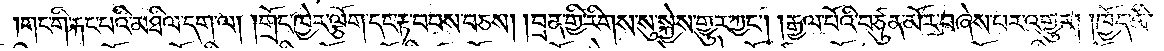།གང་གི་རྐང་པའི་མཐིལ་དག་ལ། །གྲོང་ཁྱེར་ལྕོག་དང་རྟ་བབས་བཅས། །བྲན་གྱི་རིགས་སུ་སྐྱེས་གྱུར་ཀྱང༌། །རྒྱལ་པོའི་བཙུན་མོར་བཞེས་པར་འགྱུར། །ཁྱོད་མི་
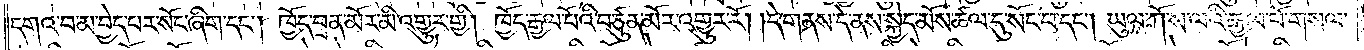དགའ་བ་མ་བྱེད་པར་སོང་ཞིག་དང༌། ཁྱོད་བྲན་མོར་མི་འགྱུར་གྱི། ཁྱོད་རྒྱལ་པོའི་བཙུན་མོར་འགྱུར་རོ། །དེ་གནས་དེ་ནས་སྐྱེད་མོས་ཚལ་དུ་སོང་བ་དང༌། ཡུལ་ཀོ་ས་ལའི་རྒྱལ་པོ་གསལ་
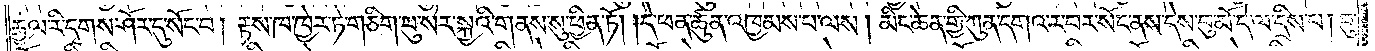རྒྱལ་རི་དྭགས་ཤོར་དུ་སོང་བ། རྟས་ཁ་ཁྱེར་ཏེ་གཅིག་པུ་སེར་སྐྱའི་གནས་སུ་ཕྱིན་ཏོ། །དེ་ཕན་ཚུན་འཁྱམས་པ་ལས། མིང་ཆེན་གྱི་ཀུན་དགའ་ར་བར་སོང་ནས་དེས་བུ་མོ་དེ་ལ་དྲིས་པ། བུ་
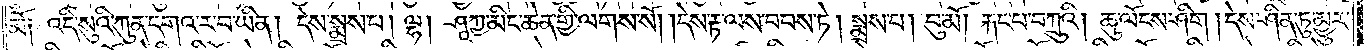མོ། འདི་སུའི་ཀུན་དགའ་ར་བ་ཡིན། དེས་སྨྲས་པ། ལྷ། ཤཱཀྱ་མིང་ཆེན་གྱི་ལགས་སོ། །དེས་རྟ་ལས་བབས་ཏེ། སྨྲས་པ། བུ་མོ། རྐང་པ་བཀྲུའི། ཆུ་ལོངས་ཤིག །དེས་ཤིན་ཏུ་མྱུར་
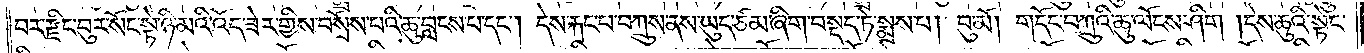བར་རྫིང་བུར་སོང་སྟེ་ཉི་མའི་འོད་ཟེར་གྱིས་བསྲོས་པའི་ཆུ་བླངས་པ་དང༌། དེས་རྐང་པ་བཀྲུས་ནས་ཡུད་ཙམ་ཞིག་བསྡད་ཏེ་སྨྲས་པ། བུ་མོ། གདོང་བཀྲུའི་ཆུ་ལོངས་ཤིག །དེས་ཆུའི་སྟེང་
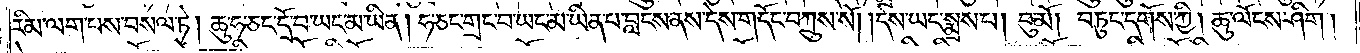རིམ་ལག་པས་བསལ་ཏེ། ཆུ་ཧ་ཅང་དྲོ་བ་ཡང་མ་ཡིན། ཧ་ཅང་གྲང་བ་ཡང་མ་ཡིན་པ་བླངས་ནས་དེས་གདོང་བཀྲུས་སོ། །དེས་ཡང་སྨྲས་པ། བུ་མོ། བཏུང་དགོས་ཀྱི། ཆུ་ལོངས་ཤིག་
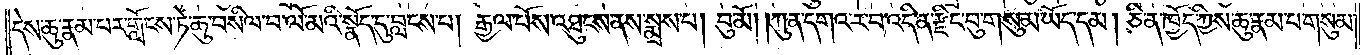དེས་ཆུ་རྣམ་པར་གློངས་ཏེ་ཆུ་བསིལ་པ་ལོ་མའི་སྣོད་དུ་བླངས་པ། རྒྱལ་པོས་འཐུངས་ནས་སྨྲས་པ། བུ་མོ། །ཀུན་དགའ་ར་བ་འདི་ན་རྫིང་བུ་གསུམ་ཡོད་དམ། ཅི་ན་ཁྱོད་ཀྱིས་ཆུ་རྣམ་པ་གསུམ་
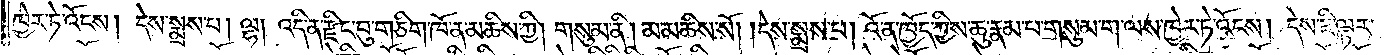ཁྱེར་ཏེ་འོངས། དེས་སྨྲས་པ། ལྷ། འདི་ན་རྫིང་བུ་གཅིག་ཁོ་ན་མཆིས་ཀྱི། གསུམ་ནི། མ་མཆིས་སོ། །དེས་སྨྲས་པ། འོ་ན་ཁྱོད་ཀྱིས་ཆུ་རྣམ་པ་གསུམ་ག་ལས་ཁྱེར་ཏེ་འོངས། དེས་ཇི་ལྟར་
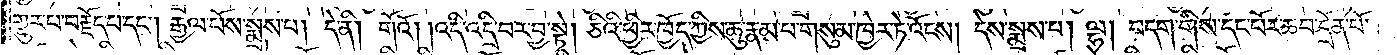གྱུར་པ་བརྗོད་པ་དང༌། རྒྱལ་པོས་སྨྲས་པ། དེ་ནི། གོའོ། །འདི་འདྲི་བར་བྱ་སྟེ། ཅིའི་ཕྱིར་ཁྱོད་ཀྱིས་ཆུ་རྣམ་པ་གསུམ་ཁྱེར་ཏེ་འོངས། དེས་སྨྲས་པ། ལྷ། བདག་གིས་དང་པོར་ཆབ་དྲོན་པོ་
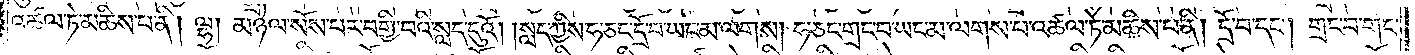འཚལ་ཏེ་མཆིས་པ་ནི། ལྷ། མཉེལ་སོས་པར་བགྱི་བའི་སླད་དུའོ། །སླད་ཀྱི་ཧ་ཅང་དྲོ་བ་ཡང་མ་ལགས། ཧ་ཅང་གྲང་བ་ཡང་མ་ལགས་པ་འཚལ་ཏེ་མཆིས་པ་ནི། དྲོ་བ་དང༌། གྲང་བ་གང་
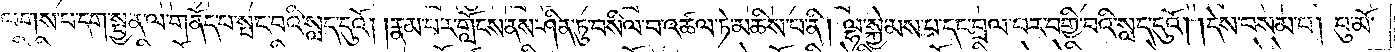ལགས་པ་དག་སྤྱན་ལ་གནོད་པ་སྤང་བའི་སླད་དུའོ། །རྣམ་པར་གློངས་ནས་ཤིན་ཏུ་བསིལ་བ་འཚལ་ཏེ་མཆིས་པ་ནི། ལྷ་སྐྱེམས་པ་དང་བྲལ་བར་བགྱི་བའི་སླད་དུའོ། །དེས་བསམ་པ། བུ་མོ་
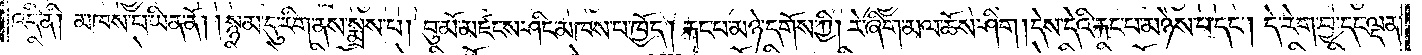འདི་ནི། མཁས་པ་ཡིན་ནོ། །སྙམ་དུ་རིག་ནས་སྨྲས་པ། བུ་མོ་མཛངས་ཤིང་མཁས་པ་ཁྱོད། རྐང་པ་མཉེ་དགོས་ཀྱི། རེ་ཞིག་མལ་ཆོས་ཤིག །དེས་དེའི་རྐང་པ་མཉེས་པ་དང༌། དེ་རེག་བྱ་དང་ལྡན་
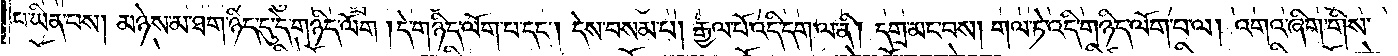པ་ཡིན་པས། མཉེས་མ་ཐག་ཉིད་དུ་དེ་གཉིད་ལོག །དེ་གཉིད་ལོག་པ་དང༌། དེས་བསམ་པ། རྒྱལ་པོ་འདི་དག་ལ་ནི། དགྲ་མང་བས། གལ་ཏེ་འདི་གཉིད་ལོག་པ་ལ། འགའ་ཞིག་གིས་
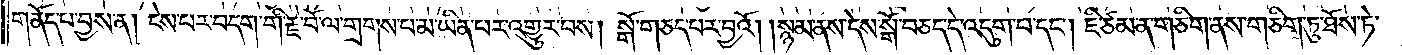གནོད་པ་བྱས་ན། ངེས་པར་བདག་གི་རྗེ་བོ་ལ་གྲགས་པ་མ་ཡིན་པར་འགྱུར་བས། སྒོ་གཅད་པར་བྱའོ། །སྙམ་ནས་དེས་སྒོ་བཅད་དེ་འདུག་པ་དང༌། ཇི་ཙམ་ན་གཅིག་ནས་གཅིག་ཏུ་ཐོས་ཏེ་
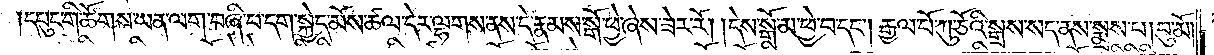དཔུང་གི་ཚོགས་ཡན་ལག་བཞི་པ་དག་སྐྱེད་མོས་ཚལ་དེར་ལྷགས་ནས་དེ་རྣམས་སྒོ་ཕྱེ་ཞེས་ཟེར་རོ། །དེས་སྒོ་མ་ཕྱེ་བ་དང༌། རྒྱལ་པོ་ཀུ་ཅོའི་སྒྲས་སད་ནས་སྨྲས་པ། བུ་མོ།
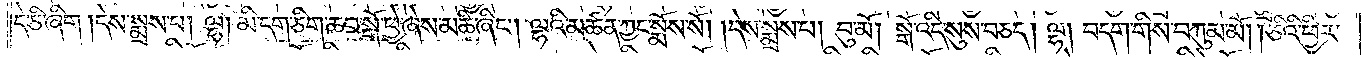དེ་ཅི་ཞིག །དེས་སྨྲས་པ། ལྷ། མི་དག་ཅིག་ཆབ་སྒོ་ཕྱེ་ཞེས་མཆི་ཞིང༌། ལྷའི་མཚན་ཀྱང་སྨོས་སོ། །དེས་སྨྲས་པ། བུ་མོ། སྒོ་འདི་སུས་བཅད། ལྷ། བདག་གིས་བཀུམ་མོ། །ཅིའི་ཕྱིར་
